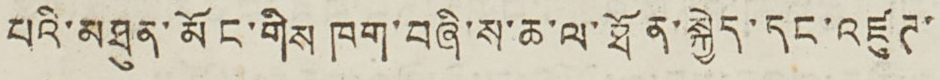པའི་མཐུན་མོང་གིས ཁག་བཞི་ས་ཆ་ལ་ཐོན་སྐྱེད་དང་འཛུཊ་
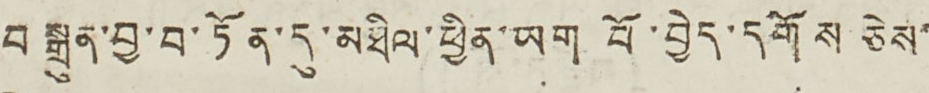བསྒྲུན་བྱ་བ་ཏོན་དུ་མཐིལ་ཕྱིན་ཡག པོ་བྱེད་དགོས ཅེས་
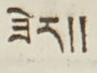ཟེར༎
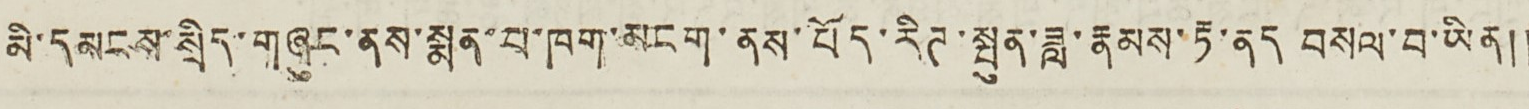མི་དམངས་སྲིད་གཞུང་ནས་སྨན་པ་ཁག་མངག་ནས་བོད་རིཊ་སྤུན་ཟླ་རྣམས་རྟ་ནད བསལ་བ་ཡིན༎
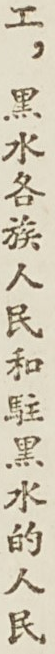工，黑水各族人民和駐黑水的人民
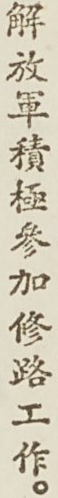解放軍積極參加修路工作
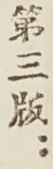第三版：
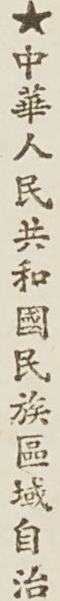★中華人民共和國民族區域自治
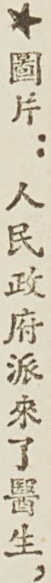★圖片：人民政府派來了醫生，
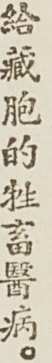給藏胞的牲畜醫病。
